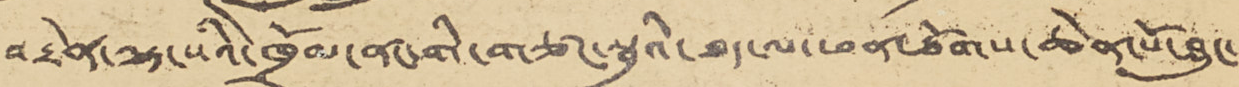བརྟེན་ལྷ་སའི་ཁྲོམ་ནང་གི་གཙང་སྦྲའི་ཐད་ལ་ཕན་ཐོགས་ཆེན་པོ་བྱུང་
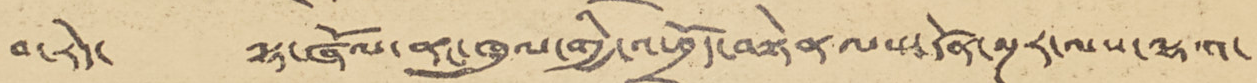བ་རེད་ ལྷ་ཞོལ་ནང་ཁུལ་གྱི་འཕྲོད་བསྟེན་ལས་དོན་སྔར་ལས་ལྷག་
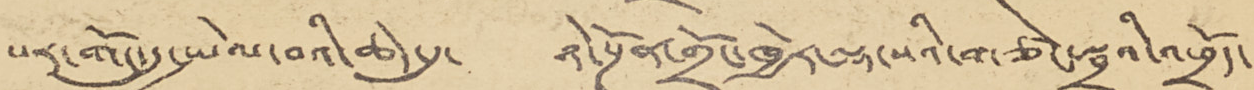པར་གོང་དུ་སྤེལ་བའི་ཆེད་དུ་ ཉེ་སྔོན་གྲོང་ཁྱེར་ལྷ་སའི་གཙང་སྦྲའི་འཕྲོད་
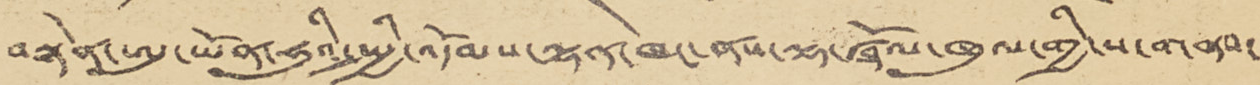བསྟེན་ཨུ་ཡོན་ཧུའི་སྤྱི་འདོམས་ལྷན་ཁང་ནས་ལྷ་ཞོལ་ཁུལ་གྱི་ས་གནས་
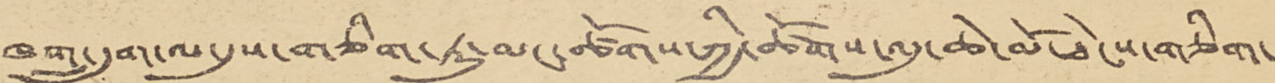ཁག་དྲུག་ལ་དུས་གཅིག་ཏུ་མང་ཚོགས་ཀྱི་ཚོགས་འདུ་ཆེ་མོ་ཐེངས་གཅིག་
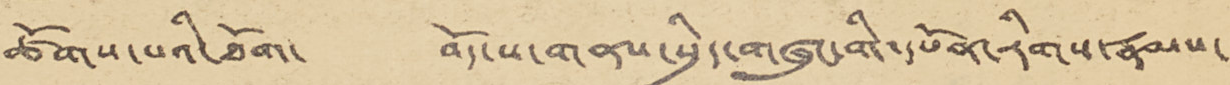ཚོགས་པའི་ཐོག་ བོད་ས་གནས་སྲིད་གཞུང་གི་དཔོན་རིགས་རྣམས་
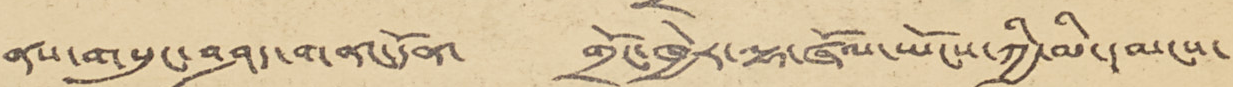ནས་གསུང་བཤད་གནང་དོན་ གྲོང་ཁྱེར་ལྷ་ཞོལ་ཡོངས་ཀྱི་མི་དམངས་
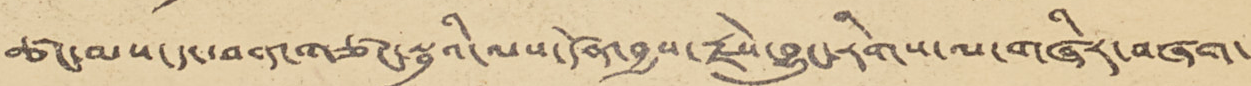ཚང་མས་ད་ཕན་གཙང་སྦྲའི་ལས་དོན་བྱས་རྗེས་བྱུང་རིགས་ལ་གཞིར་བཞག་
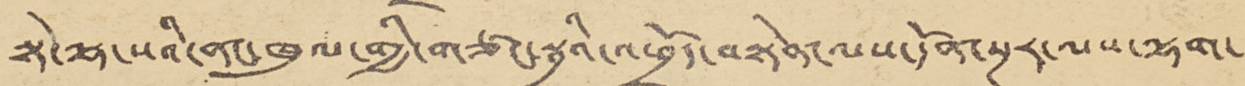སྟེ་ལྷ་སའི་ནང་ཁུལ་གྱི་གཙང་སྦྲའི་འཕྲོད་བསྟེན་ལས་དོན་སྔར་ལས་ལྷག་
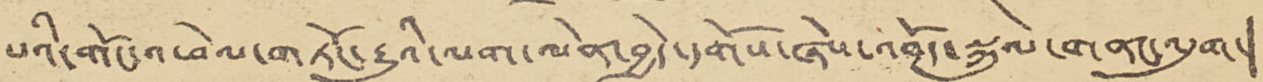པའི་གོང་འཕེལ་གཏོང་རྒྱུའི་ལག་ལེན་བྱེད་དགོས་ཞེས་འབོད་སྐུལ་གནང་འདུག་།
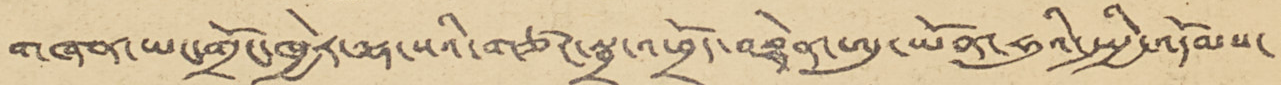གཞན་ཡང་གྲོང་ཁྱེར་ལྷ་སའི་གཙང་སྦྲ་འཕྲོད་བསྟེན་ཨུ་ཡོན་ཧུའི་སྤྱི་འདོམས་
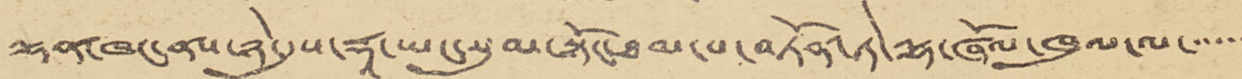ལྷན་ཁང་ནས་ཉེ་དུས་རྡཱ་ཡང་སུམ་སྟོང་ཐམ་པ་བཏོན་ཏེ་ལྷ་ཞོལ་ཁུལ་ལ་་་་་་
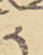ར
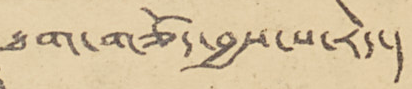ཐག་གཅོད་བྱས་པ་རེད་།
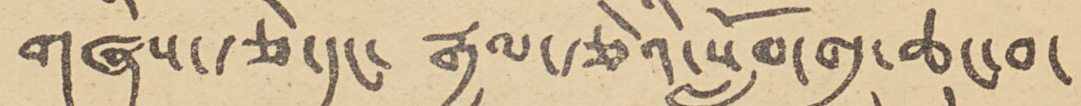གཞིས་རྩེ་དང་ རྒྱལ་རྩེའི་སློབ་གྲྭ་ཆུང་བ་
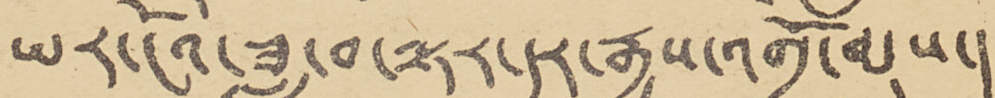ཡར་ངོའི་ཟླ་བ་ལྟར་དར་རྒྱས་འགྲོ་མུས་།
